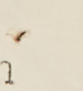(7)
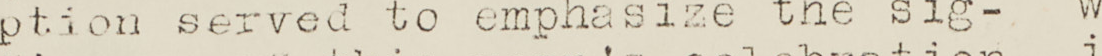them severely. It is for this reason
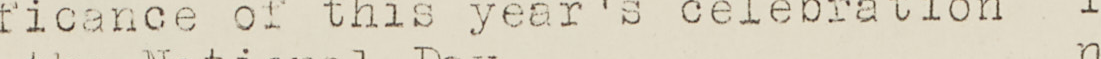hat the trade union is so feared and
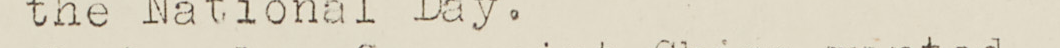respected by the working classes in
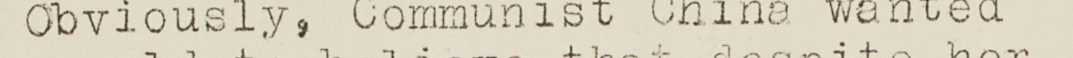China. Their very existence depends
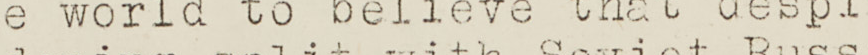upon the trade union members.
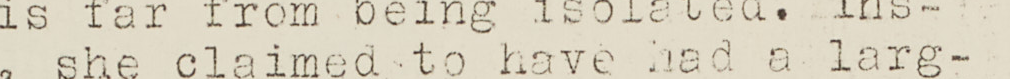NEWS LETTER From Taip i Taiwan"
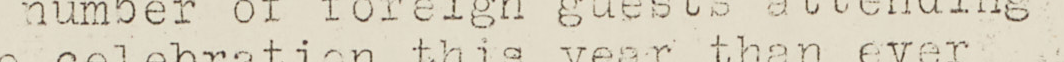HONGKONG CHINESE INDICT REDS IN 10 -
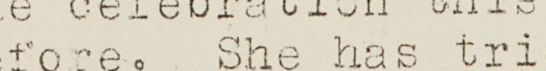POINT STATEMENT :-
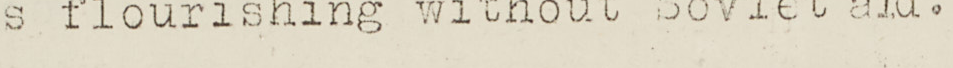Free Chinese in Hongkong greeted
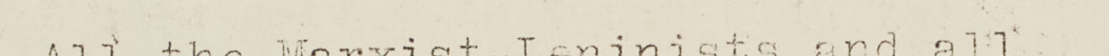the Chinese Communists "national day"
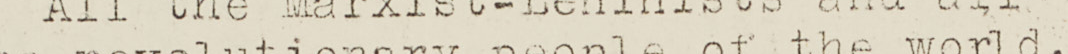with a ten-point indictment against
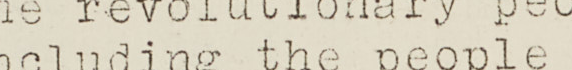the Peiping regime.
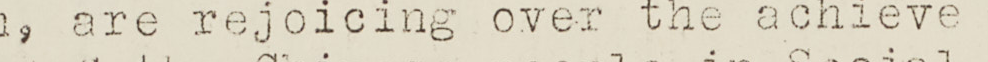The indictment was contained in
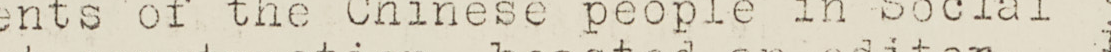declaration signed by 2,568 civic and
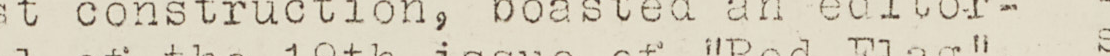cultural leaders who escaped to Hong-
